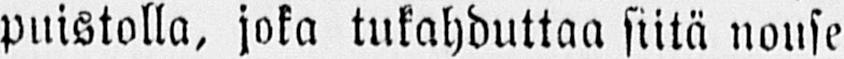puistolla, joka tukahduttaa siitä nouse-
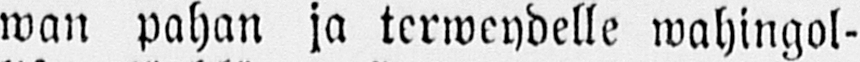wan pahan ja terweydelle wahingol-
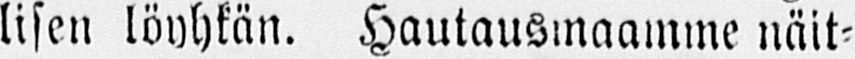lisen löyhkän. Hautausmaamme näit-
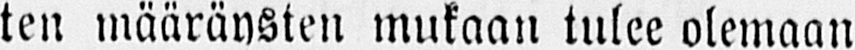ten määräysten mukaan tulee olemaan
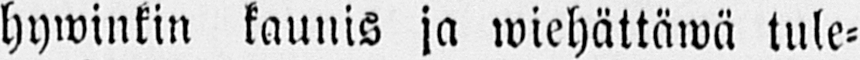hywinkin kaunis ja wiehättäwä tule-
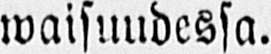waisuudessa.
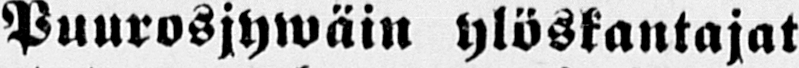Puurosjywäin ylöskantajat
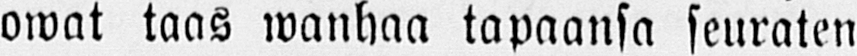owat taas wanhan tapaansa seuraten
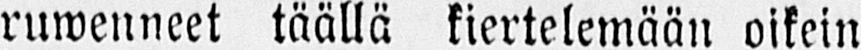ruwenneet täällä kiertelemään oikein
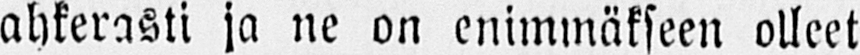ahkerasti ja ne on enimmäkseen olleet
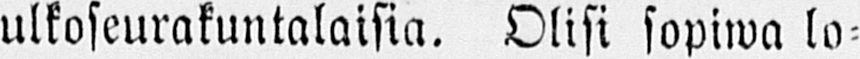ulkoseurakuntalaisia. Olisi sopiwa lo-
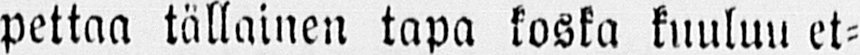pettaa tällainen tapa koska kuuluu et-
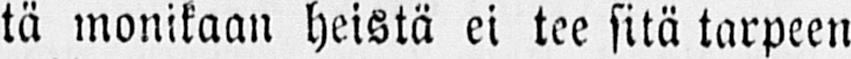tä monikaan heistä ei tee sitä tarpeen
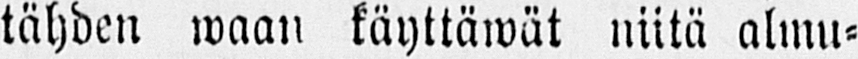tähden waan käyttäwät niitä almu-
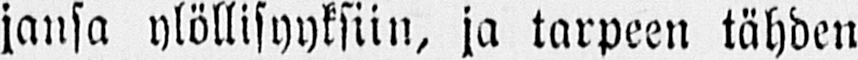jansa ylöllisyyksiin, ja tarpeen tähden
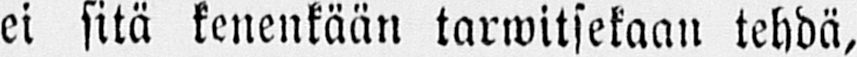ei sitä kenenkään tarwitsekaan tehdä,
